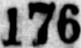176
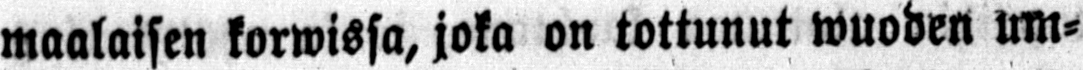maalaisen korwissa, joka on tottunut wuoden um-
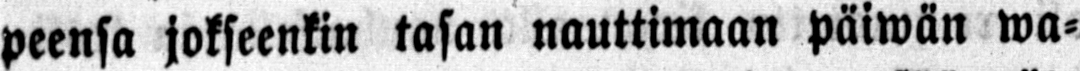peensa jokseenkin tasan nauttimaan päiwän wa-
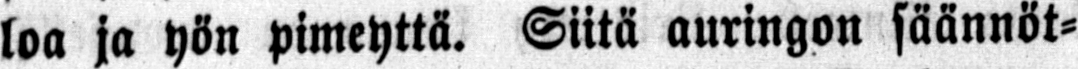loa ja yön pimeyttä. Siitä auringon säännöt-
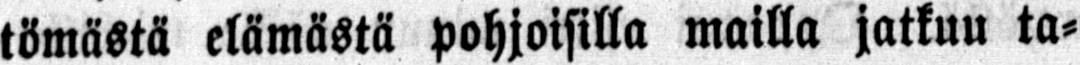tömästä elämästä pohjoisilla mailla jatkuu ta-
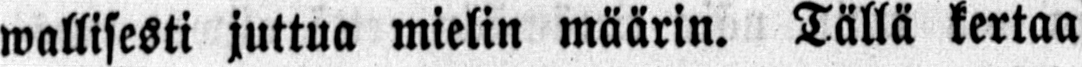wallisesti juttua mielin määrin. Tällä kertaa
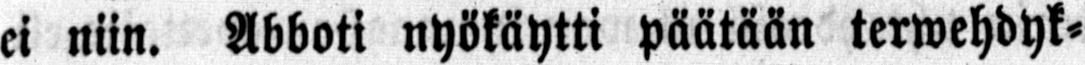ei niin. Abboti nyökäytti päätään terwehdyk-
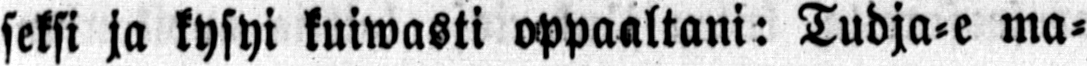seksi ja kysyi kuiwasti oppaaltani: Tudja-e ma-
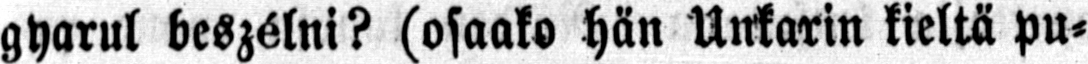gyarul beszélni? (osaako hän Unkarin kieltä pu-
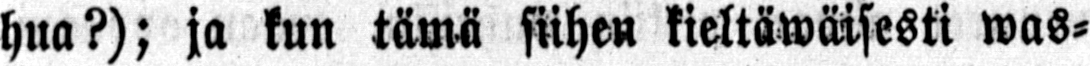hua?); ja kun tämä siihen kieltäwäisesti was-
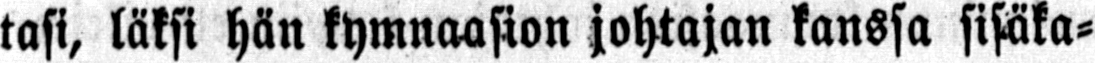tasi, läksi hän kymnaasion johtajan kanssa sisäka-
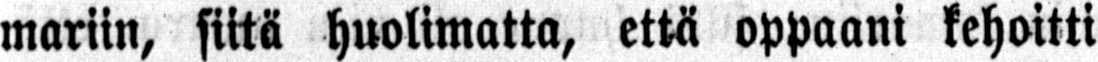mariin, siitä huolimatta, että oppaani kehoitti
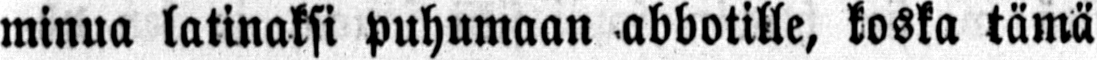minua latinaksi puhumaan abbotille, koska tämä
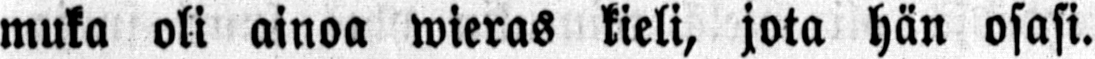muka oli ainoa wieras kieli, jota hän osasi.
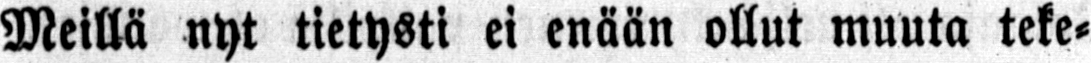Meillä nyt tietysti ei enään ollut muuta teke-
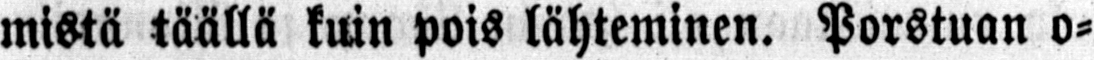mistä täällä kuin pois lähteminen. Porstuan o-
